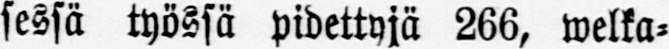sessä työssä pidettyjä 266, welka-
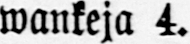wankeja 4.
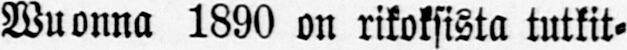Wuonna 1890 on rikoksista tutkit-
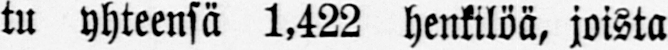tu yhteensä 1,422 henkilöä, joista
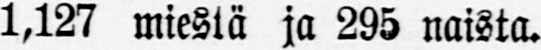1,127 miestä ja 295 naista.
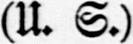(U. S.)
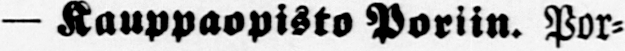— Kauppaopisto Poriin. Por-
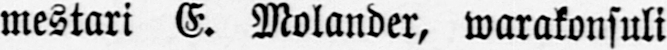mestari E. Molander, warakonsuli
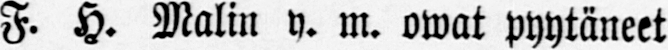F. H. Malin v. m. owat pyytäneet
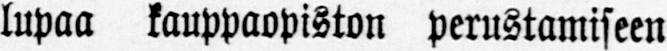lupaa kauppaopiston perustamiseen
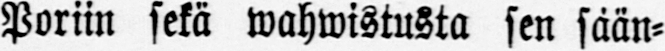Poriin sekä wahwistusta sen sään-
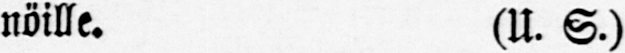nöille. (U. S.)
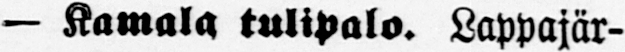— Kamala tulipalo. Lappajär-
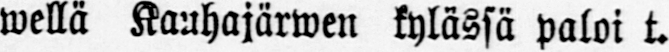wellä Kauhajärwen kylässä paloi t.
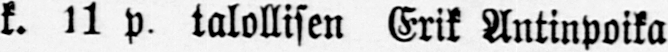k. 11 p. talollisen Erik Antinpoika
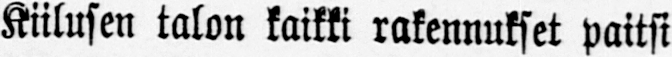Kiilusen talon kaikki rakennukset paitsi
